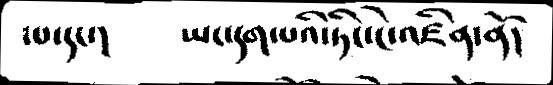་པ་དང་།    ཡང་དག་པའི་ཏིང་ངེ་འཛིན་ནོ།
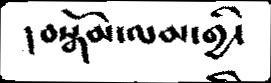།བསྒོམ་ལམ་གྱི་
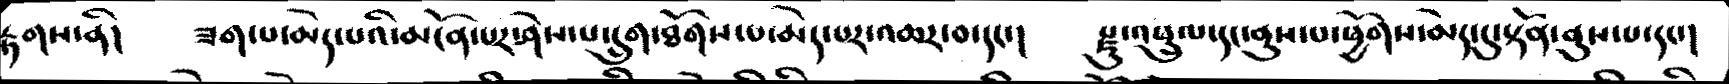རྟགས་ནི།   ཟག་པ་མེད་པའི་མངོན་པར་ཤེས་པ་དྲུག་ཐོགས་པ་མེད་པར་འཆར་བ་དང་།   རྫུ་འཕྲུལ་དང་ནུས་པ་ཕྱོགས་མེད་དུ་སྟོན་ནུས་པ་དང་།
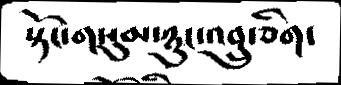སྟོང་གསུམ་ཉུང་འབྲུ་ཅིག་
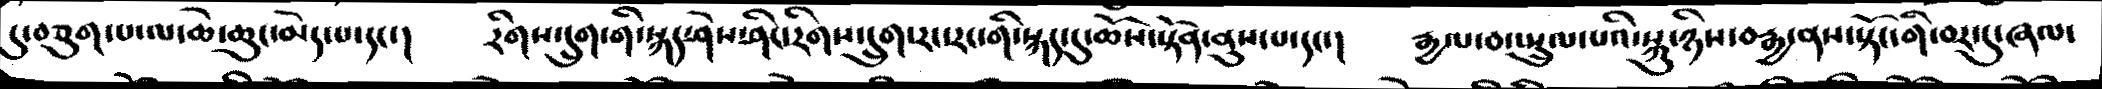དུ་བཅུག་པ་ལ་ཆེ་ཆུང་མེད་པདང་།   རིགས་དྲུག་གི་སྐད་ཤེས་ཤིང་རིགས་དྲུག་རང་རང་གི་སྐད་དུ་ཆོས་སྟོན་ནུས་པ་དང་།   རྒྱལ་བ་སྤྲུལ་པའི་སྐུ་ཉིས་བརྒྱ་ནས་སྟོང་གི་བར་དུ་ཞལ་
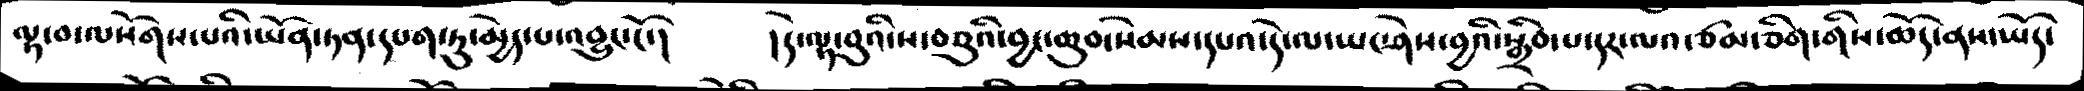ལྟ་བ་ལསོགས་པའི་ཡོན་ཏན་དཔག་ཏུ་མྱེད་པ་འབྱུང་ངོ་།   །དེ་ལྟ་བུའི་ས་བཅུའི་བྱང་ཆུབ་སེམས་དཔའ་དེ་ལ་ཡང་ཤེས་བྱའི་སྒྲིབ་པ་དར་ལའ་ཙམ་ཅིག་གིས་ཆོད་ནས་ཡོད་
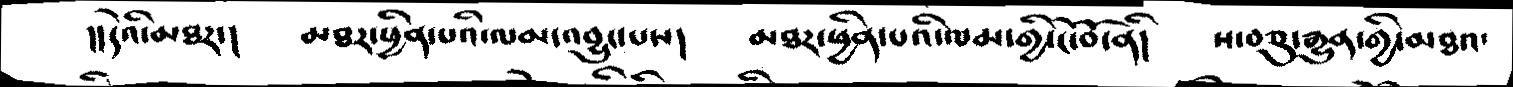།།དེའི་མཐར་།   མཐར་ཕྱིན་པའི་ལམ་འབྱུང་པས།   མཐར་ཕྱིན་པའི་ལམ་གྱི་ངོ་བོ་ནི།   ས་བཅུ་རྒྱུན་གྱི་མཐའ་
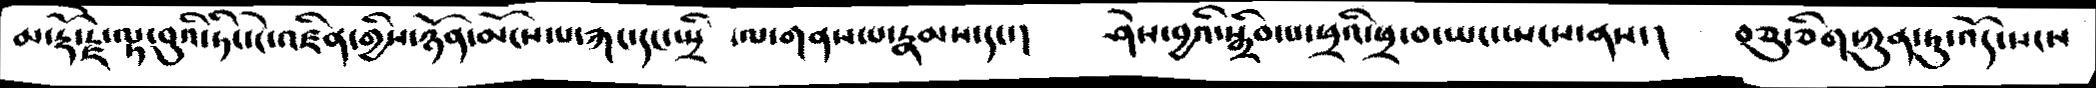མ་རྡོ་རྗེ་ལྟ་བུའི་ཏིང་ངེ་འཛིན་གྱིས་ཉོན་མོངས་པ་རྐང་དང་སྤྲི ་ལ་གནས་པ་རྣམས་དང་།   ཤེས་བྱའི་སྒྲིབ་པ་ཕྲའི་ཕྲ་བ་ཡང་སྤངས་ནས་།   བཅུ་ཅིག་ཀུན་ཏུ་འོད་སངས
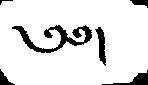༄༅།
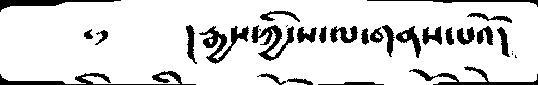༴  །རྒྱས་ཀྱི་ས་ལ་གནས་པའོ།
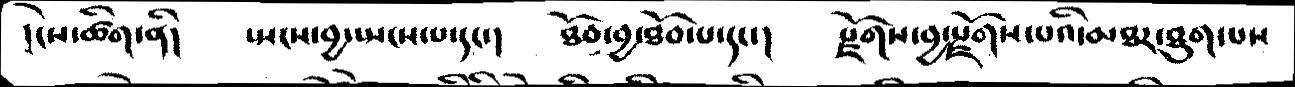།ངེས་ཚིག་ནི།   སྤངས་བྱ་སྤངས་པ་དང་།   ཐོབ་བྱ་ཐོབ་པ་དང་།   རྫོགས་བྱ་རྫོགས་པའི་མཐར་ཐུག་པས
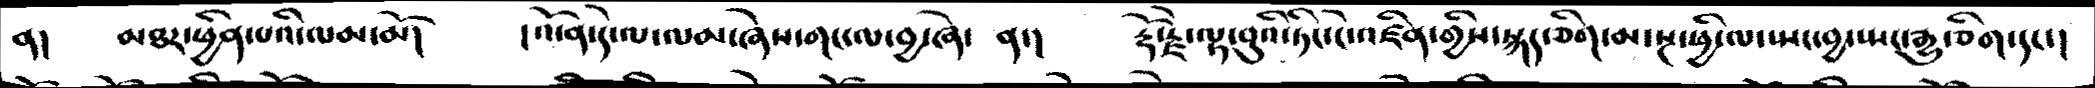ན།   མཐར་ཕྱིན་པའི་ལམ་མོ།   །འོ་ན་དེ་ལ་ལམ་ཞེས་གང་ལ་བྱ་ཞེ་ན་།   རྡོ་རྗེ་ལྟ་བུའི་ཏིང་ངེ་འཛིན་གྱིས་སྐད་ཅིག་མ་སྔ་ཕྱི་ལ་སྤང་བྱ་སྤང་རྒྱུ་ཅིག་དང་།
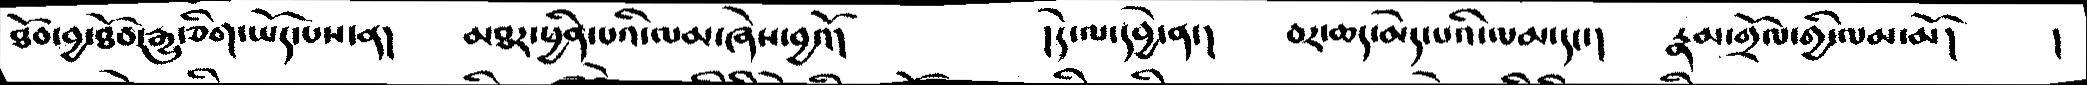ཐོབ་བྱ་ཐོབ་རྒྱུ་ཅིག་ཡོད་པས་ན།   མཐར་ཕྱིན་པའི་ལམ་ཞེས་བྱའོ།     །དེ་ལ་དབྱེ་ན།   བར་ཆད་མེད་པའི་ལམ་དང་།   རྣམ་གྲོལ་གྱི་ལམ་མོ།  །
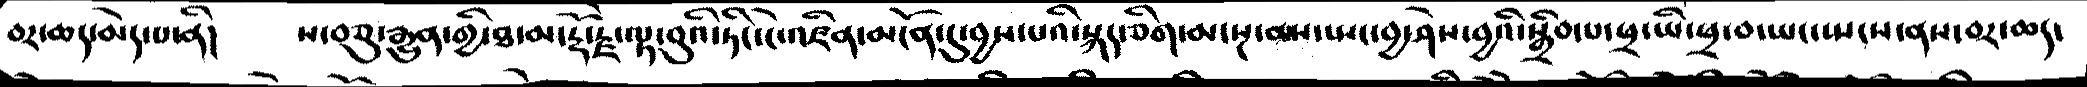བར་ཆད་མེད་པ་ནི།    ས་བཅུ་རྒྱུན་གྱི་ཐ་མ་རྡོ་རྗེ་ལྟ་བུའི་ཏིང་ངེ་འཛིན་མངོན་དུ་བྱས་པའི་སྐད་ཅིག་མ་སྔ་མས་སྤང་བྱ་ཤེས་བྱའི་སྒྲིབ་པ་ཕྲ་ཡི་ཕྲ་བ་ཡང་སྤངས་ནས་བར་ཆད་
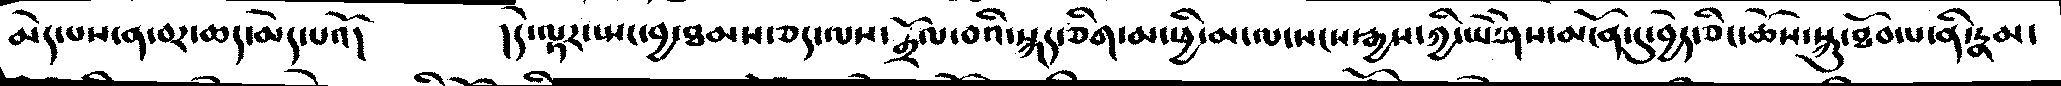མེ་དཔས་ན་བར་ཆད་མེད་པའོ།   །དེ་ལྟར་སྤང་བྱ་ཐམས་ཅད་ལས་སྒྲོལ་བའི་སྐད་ཅིག་མ་ཕྱི་མ་ལ་སངས་རྒྱས་ཀྱི་ཡེ་ཤེས་མངོན་དུ་བྱེད་ཅིང་ཆོས་སྐུ་ཐོབ་པ་ནི་རྣམ་
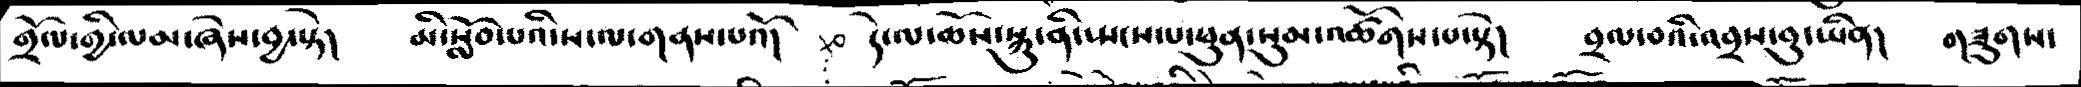གྲོལ་གྱི་ལམ་ཞེས་བྱ་སྟེ།   མི་སློབ་པའི་ས་ལ་གནས་པའོ།   དེ་ལ་ཆོས་སྐུ་ནི་སྤངས་པ་ཕུན་སུམ་འཚོགས་པ་སྟེ།   བྲལ་བའི་འབྲས་བུ་ཡིན།  གཟུགས་
